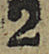2
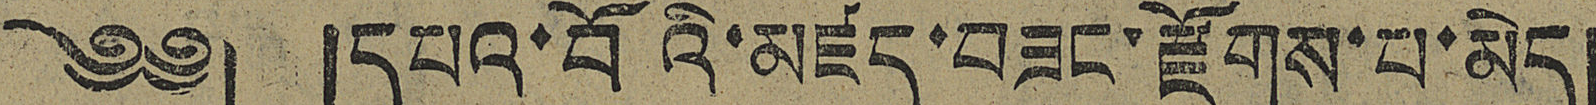༄༅། །དཔའ་བོའི་མཛད་བཟང་རྫོགས་པ་མེད།
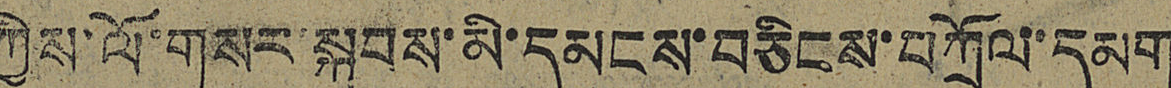ཀྱིས་ལོ་གསར་སྐབས་མི་དམངས་བཅིངས་བཀྲོལ་དམག
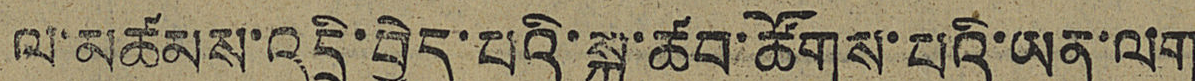ལ་མཚམས་འདྲི་བྱེད་པའི་སྐུ་ཚབ་ཚོགས་པའི་ཡན་ལག
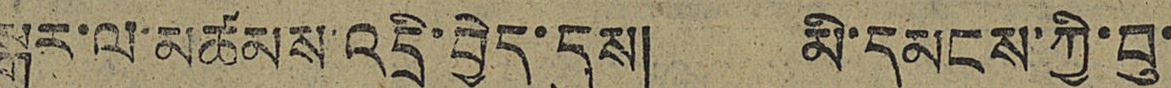སྒར་ལ་མཚམས་འདྲི་བྱེད་དུས། མི་དམངས་ཀྱི་བུ་
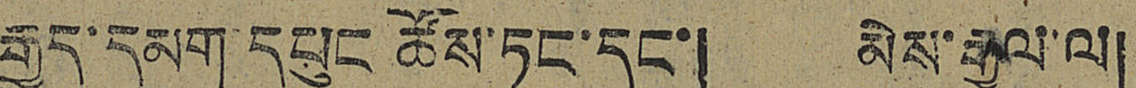རྒྱུད་དམག་དཔུང ཚོས་ཏང་དང་། མེས་རྒྱལ་ལ།
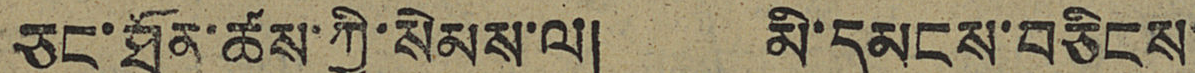ཅང་ཐོན་ཚས་ཀྱི་སེམས་ལ། མི་དམངས་བཅིངས་
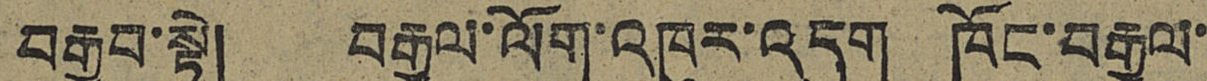བརྒྱབ་སྟེ། བརྒྱལ་ལོག་འཁུར་འདུག ཁོང་བརྒྱལ་
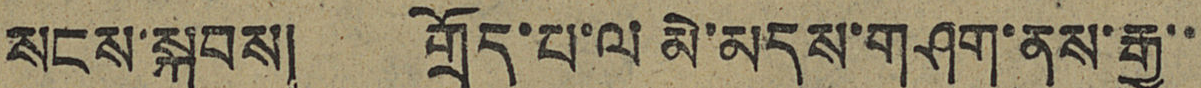སངས་སྐབས། གྲོད་པ་ལ མེ་མདས་གཤག་ནས་རྒྱུ་་
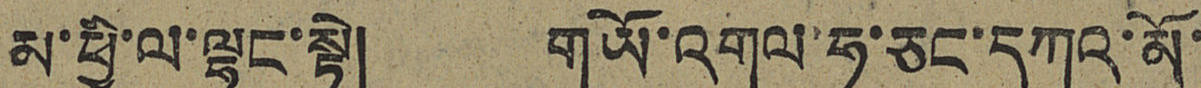མ་ཕྱི་ལ་ལྷུང་སྟེ། གཡོ་འགུལ་ཧ་ཅང་དཀའ་མོ་
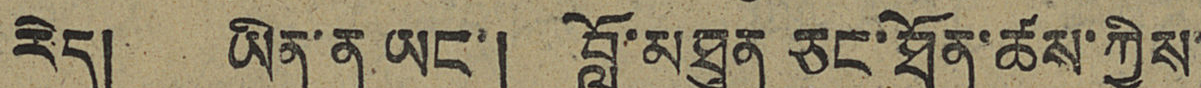རེད། ཡིན་ན ཡང་། བློ་མཐུན ཅང་ཐོན་ཚས་ཀྱིས
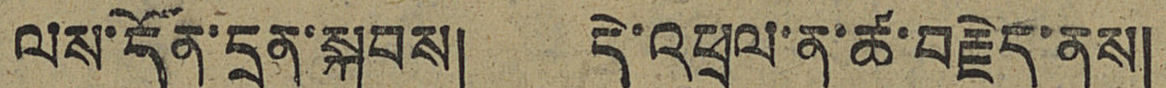ལས་དོན་དྲན་སྐབས། དེ་འཕྲལ་ན་ཚ་བརྗེད་ནས།
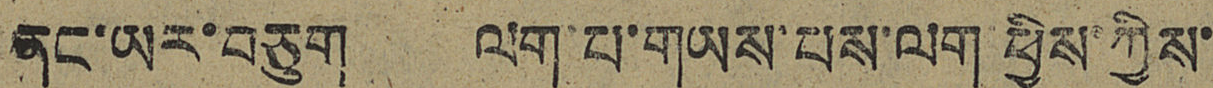ནང་ཡར་བཅུག ལག་པ་གཡས་པས་ལག ཕྱིས་ཀྱིས་
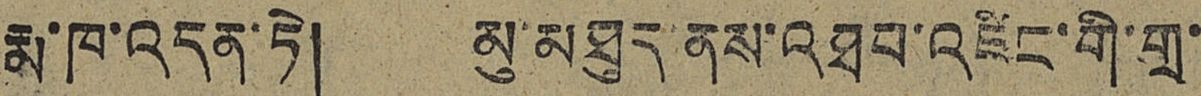རྨ་ཁ་འདན་ཏེ། མུ་མཐུད ནས་འཐབ་འཛིང་གི་གྲ་
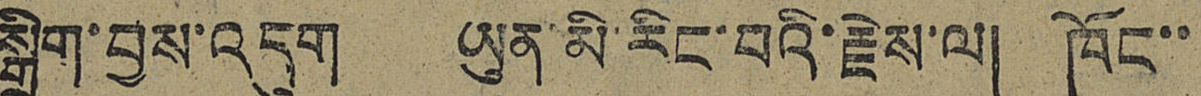སྒྲིག་བྱས་འདུག ཡུན་མི་རིང་བའི་རྗེས་ལ། ཁོང་་
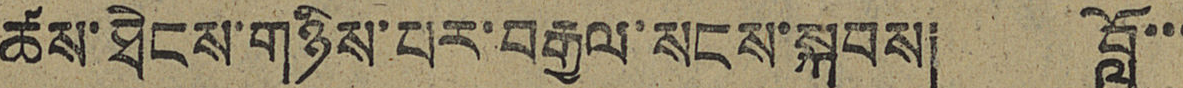ཚས་ཐེངས་གཉིས་པར་བརྒྱལ་སངས་སྐབས། བློ་་་
